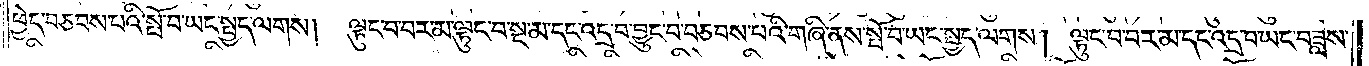ཕྱེད་བཅབས་པའི་སྤོ་བ་ཡང་སྤྱད་ལགས། ལྟུང་བ་བར་མ་ལྟུང་པ་སྔ་མ་དང་འདྲ་བ་བྱུང་བ་བཅབས་པའི་གཞི་ནས་སྤོ་བ་ཡང་སྤྱད་ལགས། ལྟུང་བ་བར་མ་དང་འདྲ་བ་ཡང་བཟླས་
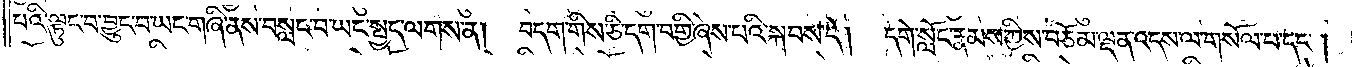པའི་ལྟུང་བ་བྱུང་བ་ཡང་གཞི་ནས་བསླང་བ་ཡང་སྤྱད་ལགས་ན། བདག་གིས་ཅི་དག་བགྱི་ཞེས་པའི་སྐབས་དེ། དགེ་སློང་རྣམས་ཀྱིས་བཅོམ་ལྡན་འདས་ལ་གསོལ་པ་དང༌།
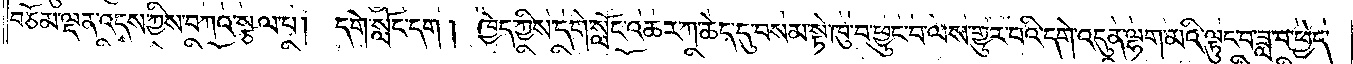བཅོམ་ལྡན་འདས་ཀྱིས་བཀའ་སྩལ་པ། དགེ་སློང་དག། ཁྱེད་ཀྱིས་དགེ་སློང་འཆར་ཀ་ཆེད་དུ་བསམ་སྟེ་ཁུ་བ་ཕྱུང་བ་ལས་གྱུར་པའི་དགེ་འདུན་ལྷག་མའི་ལྟུང་བ་ཟླ་བ་ཕྱེད་
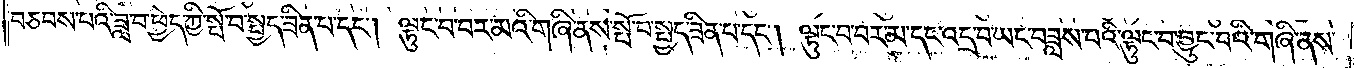བཅབས་པའི་ཟླ་བ་ཕྱེད་ཀྱི་སྤོ་བ་སྤྱད་ཟིན་པ་དང༌། ལྟུང་བ་བར་མའི་གཞི་ནས་སྤོ་བ་སྤྱད་ཟིན་པ་དང༌། ལྟུང་བ་བར་མ་དང་འདྲ་བ་ཡང་བཟླས་པའི་ལྟུང་བ་བྱུང་བའི་གཞི་ནས་
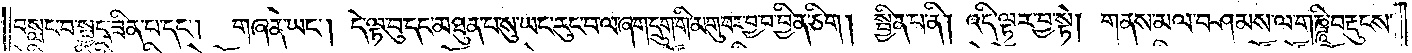བསླང་བ་སྤྱད་ཟིན་པ་དང༌། གཞན་ཡང༌། དེ་ལྟ་བུ་དང་མཐུན་པ་སུ་ཡང་རུང་བ་ལ་ཞག་དྲུག་གི་མགུ་བར་བྱ་བ་བྱིན་ཅིག། སྦྱིན་པ་ནི། འདི་ལྟར་བྱ་སྟེ། གནས་མལ་བཤམས་ལ་གཎྜཱི་བརྡུངས་
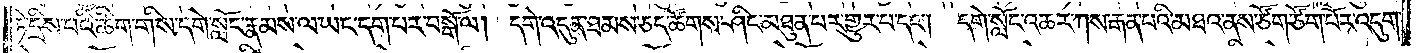ཏེ་དྲིས་པའི་ཚིག་གིས་དགེ་སློང་རྣམས་ལ་ཡང་དག་པར་བསྒོ་ལ། དགེ་འདུན་ཐམས་ཅད་ཚོགས་ཤིང་མཐུན་པར་གྱུར་པ་དང༌། དགེ་སློང་འཆར་ཀས་རྒན་པའི་མཐའ་ནས་ཙོག་ཙོག་པོར་འདུག་
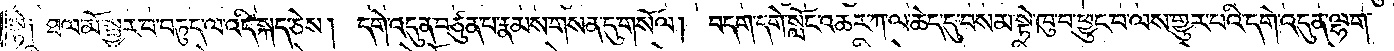སྟེ༑ ཐལ་མོ་སྦྱར་བ་བཏུད་ལ་འདི་སྐད་ཅེས། དགེ་འདུན་བཙུན་པ་རྣམས་གསན་དུ་གསོལ། བདག་དགེ་སློང་འཆར་ཀ་ལ་ཆེད་དུ་བསམ་སྟེ་ཁུ་བ་ཕྱུང་བ་ལས་གྱུར་པའི་དགེ་འདུན་ལྷག་
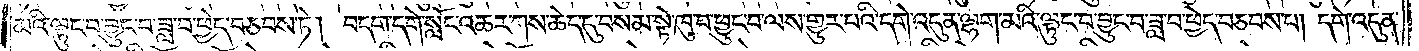མའི་ལྟུང་བ་བྱུང་བ་ཟླ་བ་ཕྱེད་བཅབས་ཏེ། བདག་དགེ་སློང་འཆར་ཀས་ཆེད་དུ་བསམ་སྟེ་ཁུ་བ་ཕྱུང་བ་ལས་གྱུར་པའི་དགེ་འདུན་ལྷག་མའི་ལྟུང་བ་བྱུང་བ་ཟླ་བ་ཕྱེད་བཅབས་པ། དགེ་འདུན་
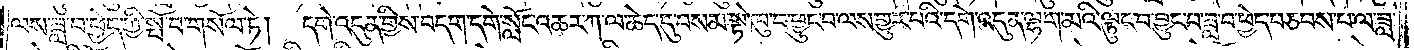ལས་ཟླ་བ་ཕྱེད་ཀྱི་སྤོ་བ་གསོལ་ཏེ། དགེ་འདུན་གྱིས་བདག་དགེ་སློང་འཆར་ཀ་ལ་ཆེད་དུ་བསམ་སྟེ་ཁུ་བ་ཕྱུང་བ་ལས་གྱུར་པའི་དགེ་འདུན་ལྷག་མའི་ལྟུང་བ་བྱུང་བ་ཟླ་བ་ཕྱེད་བཅབས་པ་ལ་ཟླ་
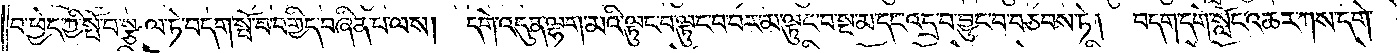བ་ཕྱེད་ཀྱི་སྤོ་བ་སྩལ་ཏེ་བདག་སྤོ་བ་བགྱིད་བཞིན་པ་ལས། དགེ་འདུན་ལྷག་མའི་ལྟུང་བ་ལྟུང་བ་བར་མ་ལྟུང་བ་སྔ་མ་དང་འདྲ་བ་བྱུང་བ་བཅབས་ཏེ། བདག་དགེ་སློང་འཆར་ཀས་དགེ་
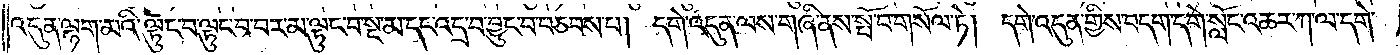འདུན་ལྷག་མའི་ལྟུང་བ་ལྟུང་བ་བར་མ་ལྟུང་བ་སྔ་མ་དང་འདྲ་བ་བྱུང་བ་བཅབས་པ། དགེ་འདུན་ལས་གཞི་ནས་སྤོ་བ་གསོལ་ཏེ། དགེ་འདུན་གྱིས་བདག་དགེ་སློང་འཆར་ཀ་ལ་དགེ་
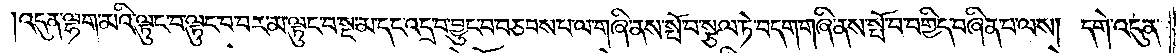།འདུན་ལྷག་མའི་ལྟུང་བ་ལྟུང་བ་བར་མ་ལྟུང་བ་སྔ་མ་དང་འདྲ་བ་བྱུང་བ་བཅབས་པ་ལ་གཞི་ནས་སྤོ་བ་སྩལ་ཏེ་བདག་གཞི་ནས་སྤོ་བ་བགྱིད་བཞིན་པ་ལས། དགེ་འདུན་
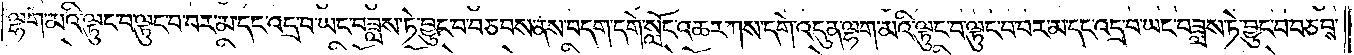ལྷག་མའི་ལྟུང་བ་ལྟུང་བ་བར་མ་དང་འདྲ་བ་ཡང་བཟླས་ཏེ་བྱུང་བ་བཅབས་ནས་བདག་དགེ་སློང་འཆར་ཀས་དགེ་འདུན་ལྷག་མའི་ལྟུང་བ་ལྟུང་བ་བར་མ་དང་འདྲ་བ་ཡང་བཟླས་ཏེ་བྱུང་བ་བཅབས་
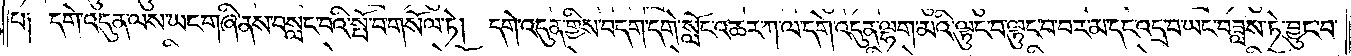པ༑ དགེ་འདུན་ལས་ཡང་གཞི་ནས་བསླང་བའི་སྤོ་བ་གསོལ་ཏེ། དགེ་འདུན་གྱིས་བདག་དགེ་སློང་འཆར་ཀ་ལ་དགེ་འདུན་ལྷག་མའི་ལྟུང་བ་ལྟུང་བ་བར་མ་དང་འདྲ་བ་ཡང་བཟླས་ཏེ་བྱུང་བ་
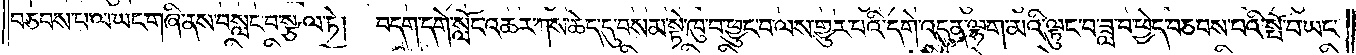བཅབས་པ་ལ་ཡང་གཞི་ནས་བསླང་བ་སྩལ་ཏེ། བདག་དགེ་སློང་འཆར་ཀས་ཆེད་དུ་བསམ་སྟེ་ཁུ་བ་ཕྱུང་བ་ལས་གྱུར་བའི་དགེ་འདུན་ལྷག་མའི་ལྟུང་བ་ཟླ་བ་ཕྱེད་བཅབས་པའི་སྤོ་བ་ཡང་
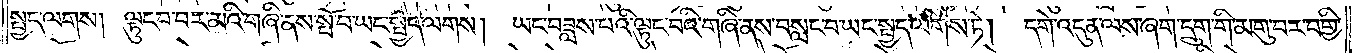སྤྱད་ལགས། ལྟུང་བ་བར་མའི་གཞི་ནས་སྤོ་བ་ཡང་སྤྱད་ལགས། ཡང་བཟླས་པའི་ལྟུང་བའི་གཞི་ནས་བསླང་བ་ཡང་སྤྱད་ལགས་ཏེ། དགེ་འདུན་ལས་ཞག་དྲུག་གི་མགུ་བར་བགྱི་
